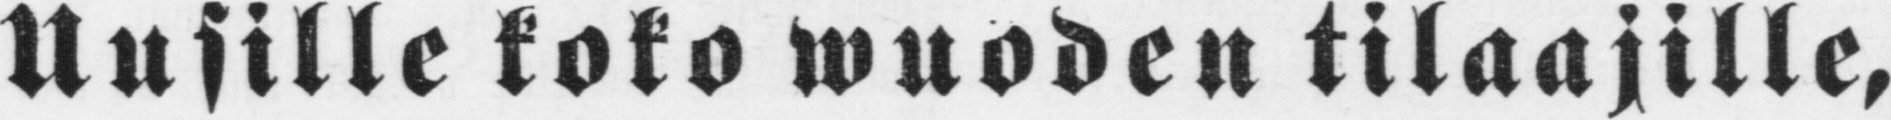Uusille koko wuoden tilaajille,
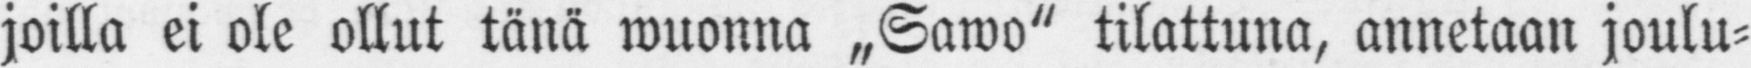joilla ei ole ollut tänä wuonna „Sawo" tilattuna, annetaan joulu-
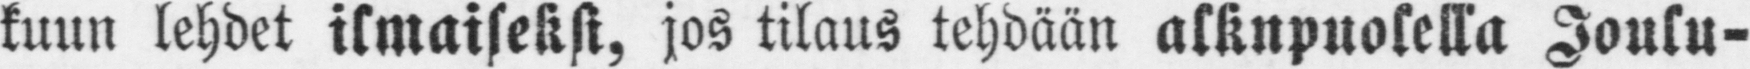kuun lehdet ilmaiseksi, jos tilaus tehdään alknpuolella Joulu-
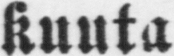kuuta
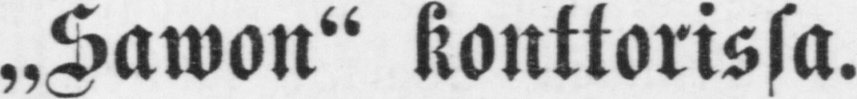„Sawon" konttorissa.
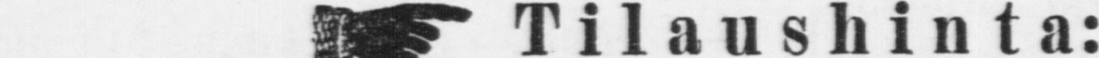T ilaushinta:
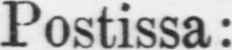Postissa:
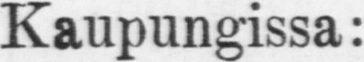Kaupungissa:
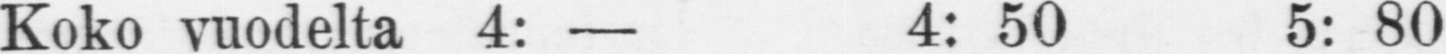Koko vuodelta 4: — 4: 50 5: 80
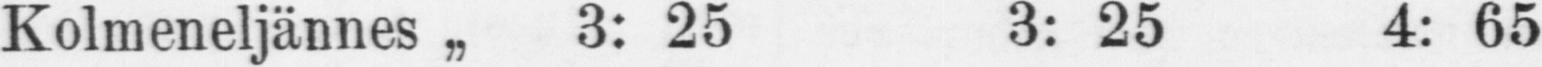Kolmeneljännes „ 3: 25 3: 25 4: 65
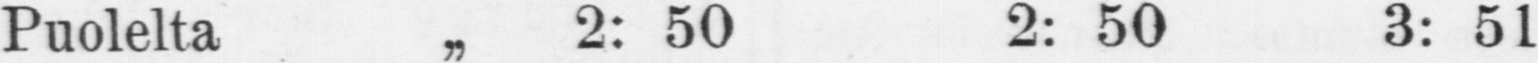Puolelta „ 2: 50 2: 50 3: 51
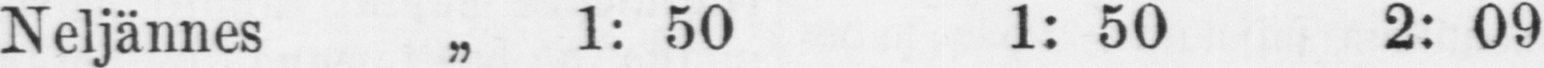Neljännes „ 1: 50 1: 50 2: 09
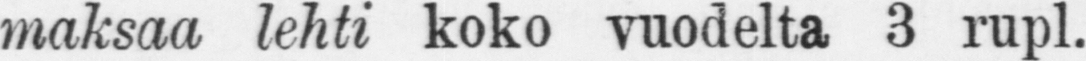Wenäjällä maksaa koko vuodelta 3 rupl.
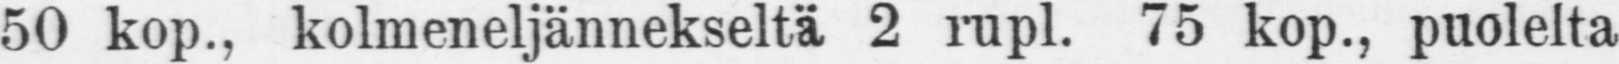50 kop., kolmeneljännekse1tä 2 rupl. 75 kop., puoletta
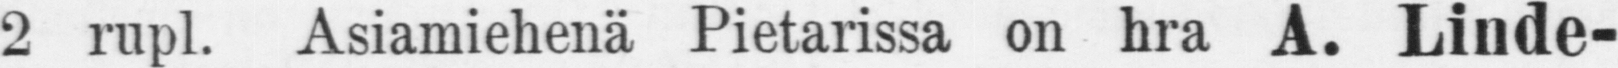2 rupl. Asiamiehenä Pietarissa on hna A. Linde-
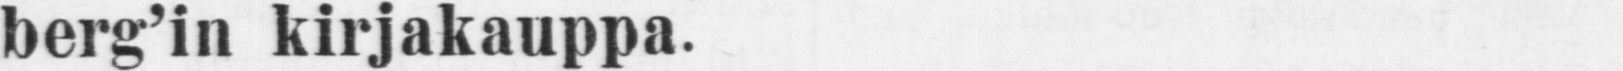Berg'in kirjakauppa.
